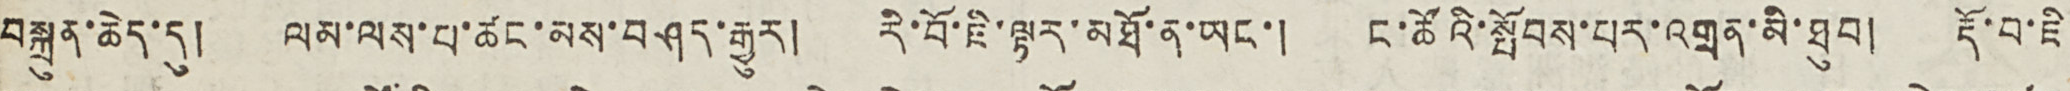བསྐྲུན་ཆེད་དུ། ལམ་ལས་པ་ཚང་མས་བཤད་རྒྱུར། རི་བོ་ཇི་ལྟར་མཐོ་ན་ཡང་། ང་ཚོའི་སྤོབས་པར་འགྲན་མི་ཐུབ། རྡོ་བ་ཇི
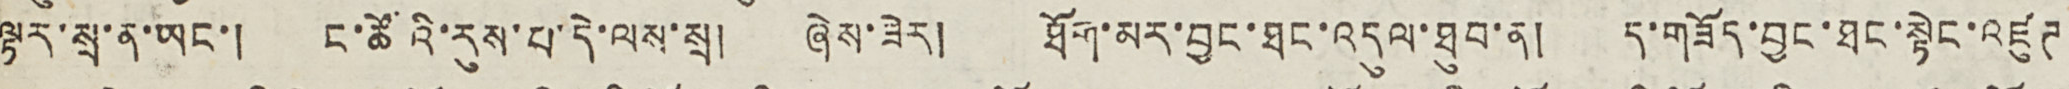ལྟར་སྲ་ན་ཡང་། ང་ཚོའི་རུས་པ་དེ་ལས་སྲ། ཞེས་ཟེར། ཐོག་མར་བྱང་ཐང་འདུལ་ཐུབ་ན། ད་གཟོད་བྱང་ཐང་སྟེང་འཛུཊ
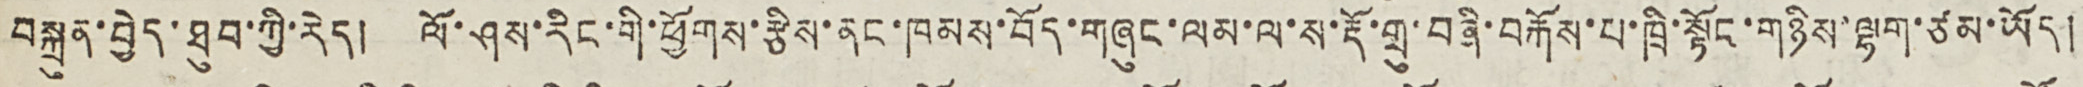བསྐྲུན་བྱེད་ཐུབ་ཀྱི་རེད། ལོ་ཤས་རིང་གི་ཕྱོགས་རྩིས་ནང་ཁམས་བོད་གཞུང་ལམ་ལ་ས་རྡོ་གྲུ་བཞི་བརྐོས་པ་ཁྲི་སྟོང་གཉིས་ལྷག་ཙམ་ཡོད།
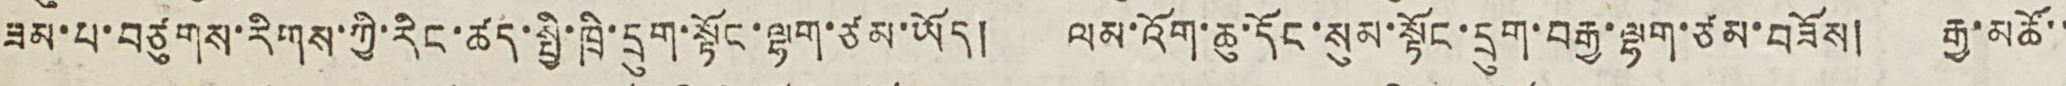ཟམ་པ་བཙུགས་རིགས་ཀྱི་རིང་ཚད་སྤྱི་ཁྲི་དྲུག་སྟོང་ལྷག་ཙམ་ཡོད། ལམ་འོག་ཆུ་དོང་སུམ་སྟོང་དྲུག་བརྒྱ་ལྷག་ཙམ་བཟོས། རྒྱ་མཚོ་་
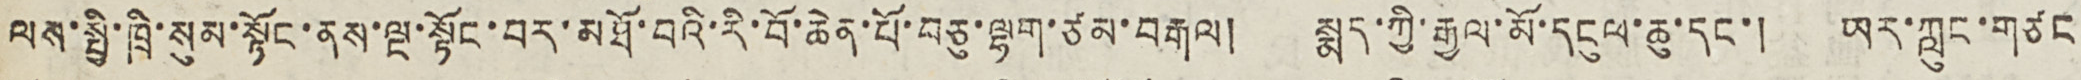ལས་སྤྱི་ཁྲི་སུམ་སྟོང་ནས་ལྔ་སྟོང་བར་མཐོ་བའི་རི་བོ་ཆེན་པོ་བཅུ་ལྷག་ཙམ་བརྒལ། སྨད་ཀྱི་རྒྱལ་མོ་དངུལ་ཆུ་དང་། ཡར་ཀླུང་གཙང
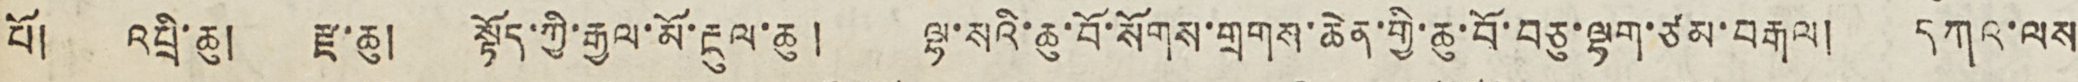པོ། འབྲི་ཆུ། རྫ་ཆུ། སྟོད་ཀྱི་རྒྱལ་མོ་རྔུལ་ཆུ། ལྷ་སའི་ཆུ་བོ་སོགས་གྲགས་ཆེན་གྱི་ཆུ་བོ་བཅུ་ལྷག་ཙམ་བརྒལ། དཀའ་ལས
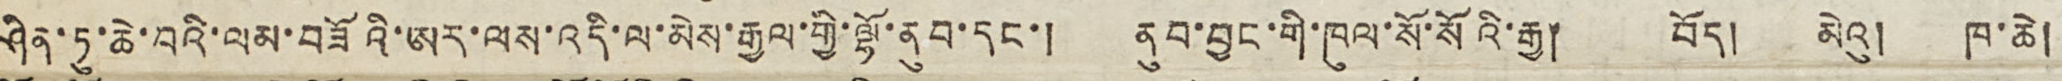ཤིན་ཏུ་ཆེ་བའི་ལམ་བཟོའི་ཨར་ལས་འདི་ལ་མེས་རྒྱལ་གྱི་ལྷོ་ནུབ་དང་། ནུབ་བྱང་གི་ཁུལ་སོ་སོའི་རྒྱ། བོད། མེའུ། ཁ་ཆེ།
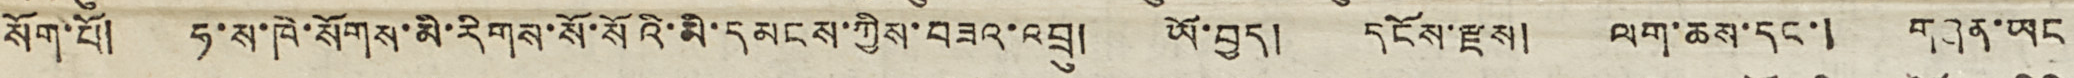སོག་པོ། ཧ་ས་ཁེ་སོགས་མི་རིགས་སོ་སོའི་མི་དམངས་ཀྱིས་བཟའ་འབྲུ། ཡོ་བྱད། དངོས་རྫས། ལག་ཆས་དང་། གཞན་ཡང
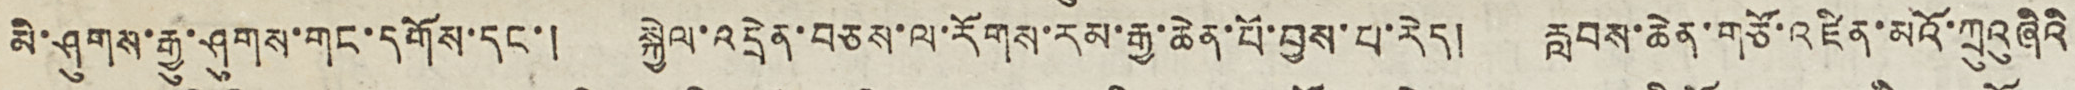མི་ཤུགས་རྒྱུ་ཤུགས་གང་དགོས་དང་། སྐྱེལ་འདྲེན་བཅས་ལ་རོགས་རམ་རྒྱ་ཆེན་པོ་བྱས་པ་རེད། རླབས་ཆེན་གཙོ་འཛིན་མའོ་ཀྲུའུ ཞིའི
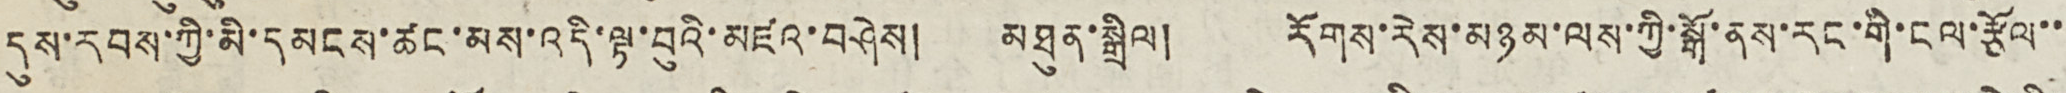དུས་རབས་ཀྱི་མི་དམངས་ཚང་མས་འདི་ལྟ་བུའི་མཛའ་བཤེས། མཐུན་སྒྲིལ། རོགས་རེས་མཉམ་ལས་ཀྱི་སྒོ་ནས་རང་གི་ངལ་རྩོལ་་
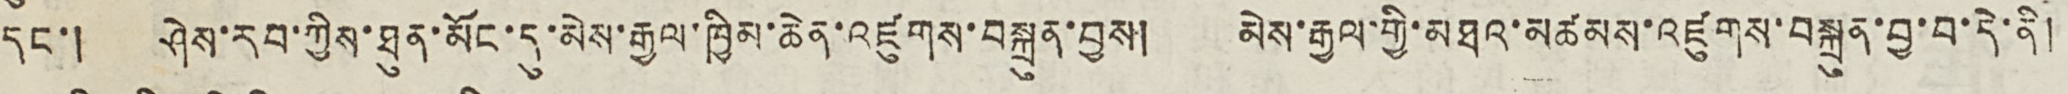དང་། ཤེས་རབ་ཀྱིས་ཐུན་མོང་དུ་མེས་རྒྱལ་ཁྱིམ་ཆེན་འཛུགས་བསྐྲུན་བྱས། མེས་རྒྱལ་གྱི་མཐའ་མཚམས་འཛུགས་བསྐྲུན་བྱ་བ་དེ་ནི།
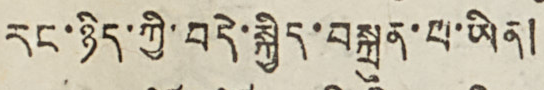རང་ཉིད་ཀྱི་བདེ་སྐྱིད་བསྐྲུན་པ་ཡིན།
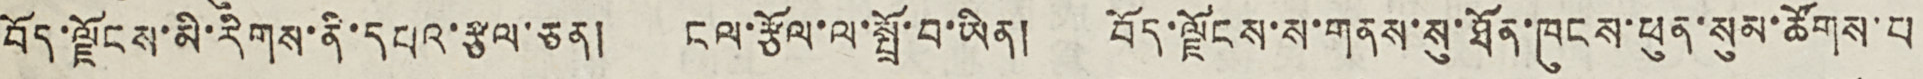བོད་ལྗོངས་མི་རིགས་ནི་དཔའ་རྩལ་ཅན། ངལ་རྩོལ་ལ་སྤྲོ་བ་ཡིན། བོད་ལྗོངས་ས་གནས་སུ་ཐོན་ཁུངས་ཕུན་སུམ་ཚོགས་པ
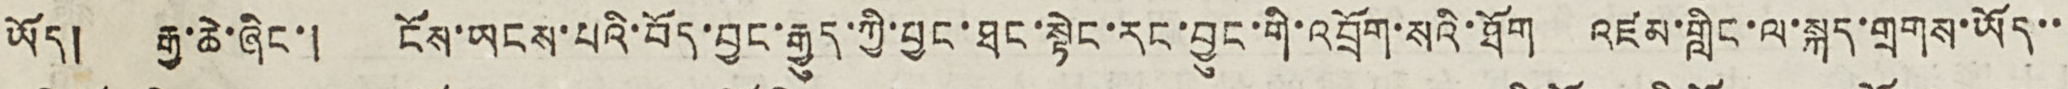ཡོད། རྒྱ་ཆེ་ཞིང་། ངོས་ཡངས་པའི་བོད་བྱང་རྒྱུད་ཀྱི་བྱང་ཐང་སྟེང་རང་བྱུང་གི་འབྲོག་སའི་ཐོག འཛམ་གླིང་ལ་སྐད་གྲགས་ཡོད་་
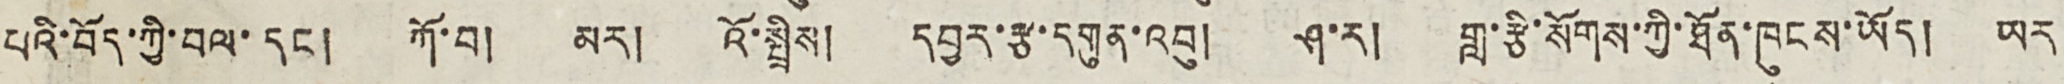པའི་བོད་ཀྱི་བལ་དང། ཀོ་བ། མར། འོ་སྤྲིས། དབྱར་རྩ་དགུན་འབུ། ཤ་ར། གླ་རྩི་སོགས་ཀྱི་ཐོན་ཁུངས་ཡོད། ཡར
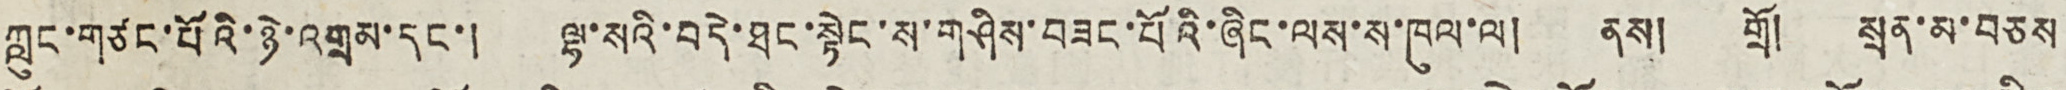ཀླུང་གཙང་པོའི་ཉེ་འགྲམ་དང་། ལྷ་སའི་བདེ་ཐང་སྟེང་ས་གཤིས་བཟང་པོའི་ཞིང་ལས་ས་ཁུལ་ལ། ནས། གྲོ། སྲན་མ་བཅས
